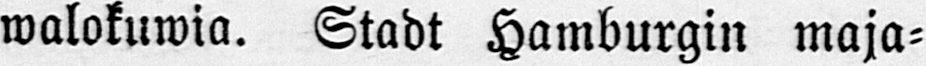walokuwia. Stadt Hamburgin maja-
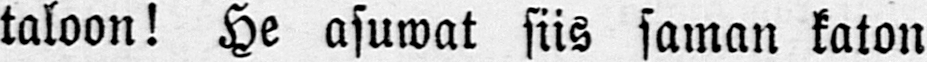taloon! He asuwat siis saman katon
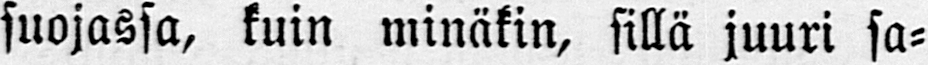suojassa, kuin minäkin, sillä juuri sa-
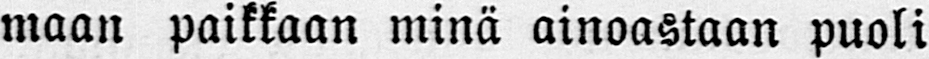maan paikkaan minä ainoastaan puoli
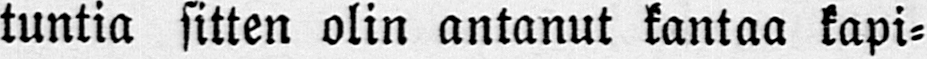tuntia sitten olin antanut kantaa kapi-
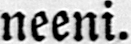neeni.
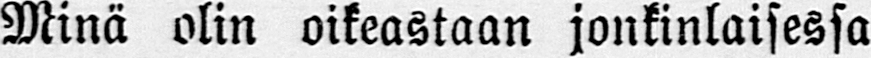Minä olin oikeastaan jonkinlaisessa
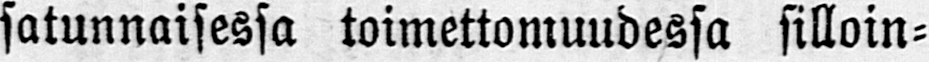satunnaisessa toimettomuudessa silloin-
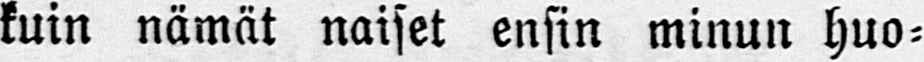kuin nämät naiset ensin minun huo-
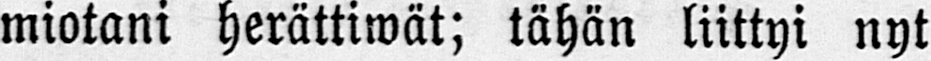miotani herättiwät; tähän liittyi nyt
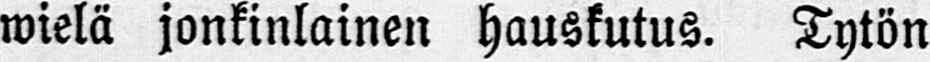wielä jonkinlainen hauskutus. Tytön
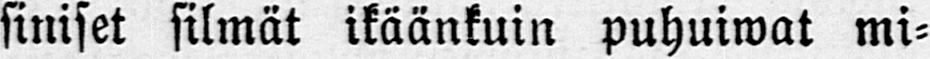siniset silmät ikäänkuin puhuiwat mi-
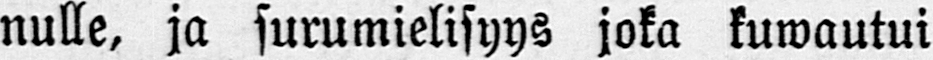nulle, ja surumielisyys joka kuwautui
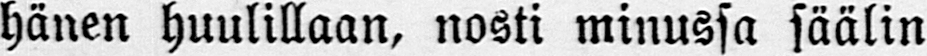hänen huulillaan, nosti minussa säälin
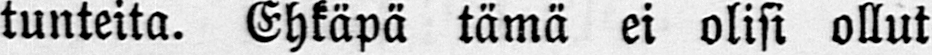tunteita. Ehkäpä tämä ei olisi ollut
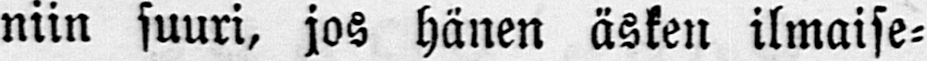niin suuri, jos hänen äsken ilmaise-
